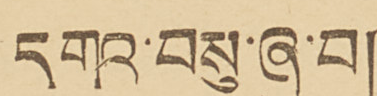དགའ་བསུ་ཞུ་བ།
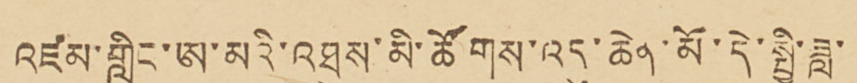འཛམ་གླིང་ཨ་མའི་འཐུས་མི་ཚོགས་འདུ་ཆེན་མོ་དེ་སྤྱི་ཟླ་ ༧
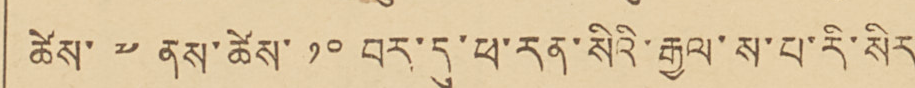ཚེས་ ༧ ནས་ཚེས་ ༡༠ བར་དུ་ཕ་རན་སིའི་རྒྱལ་ས་པ་རི་སིར་
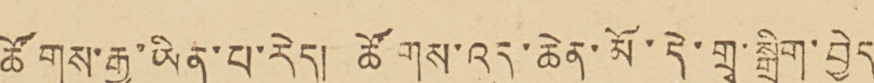ཚོགས་རྒྱུ་ཡིན་པ་རེད། ཚོགས་འདུ་ཆེན་མོ་དེ་གྲྭ་སྒྲིག་བྱེད་་
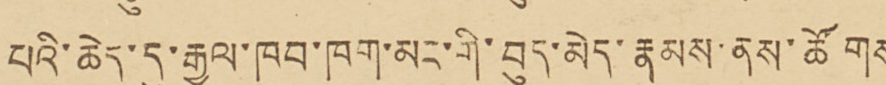པའི་ཆེད་དུ་རྒྱལ་ཁབ་ཁག་མང་གི་བུད་མེད་རྣམས་ནས་ཚོགས་
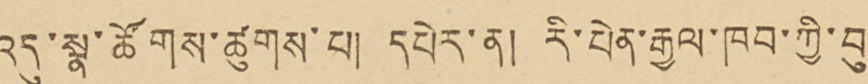འདུ་སྣ་ཚོགས་ཚུགས་པ། དཔེར་ན། རི་པེན་རྒྱལ་ཁབ་ཀྱི་བུད་
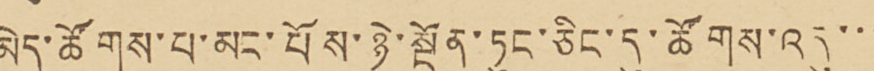མེད་ཚོགས་པ་མང་པོས་ཉེ་སྔོན་ཏུང་ཅིང་དུ་ཚོགས་འདུ་་་་
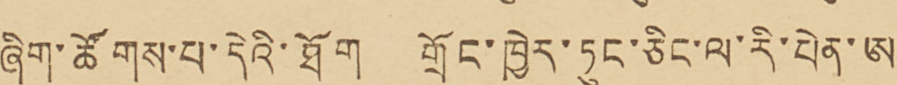ཞིག་ཚོགས་པ་དེའི་ཐོག གྲོང་ཁྱེར་ཏུང་ཅིང་ལ་རི་པེན་ཨ་
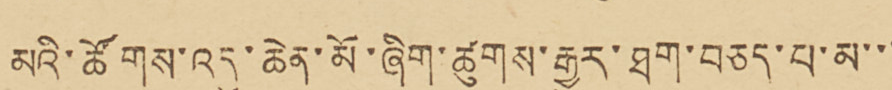མའི་ཚོགས་འདུ་ཆེན་མོ་ཞིག་ཚུགས་རྒྱུར་ཐག་བཅད་པ་མ་་་
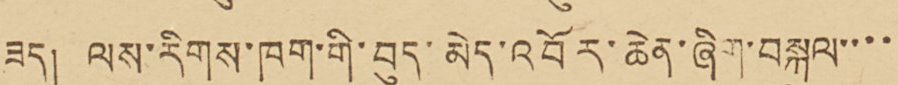ཟད། ལས་རིགས་ཁག་གི་བུད་མེད་འབོར་ཆེན་ཞིག་བསྐུལ་་་་་
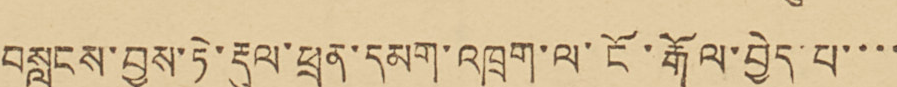བསླངས་བྱས་ཏེ་རྡུལ་ཕྲན་དམག་འཁྲུག་ལ་ངོ་རྒོལ་བྱེད་པ་་་་
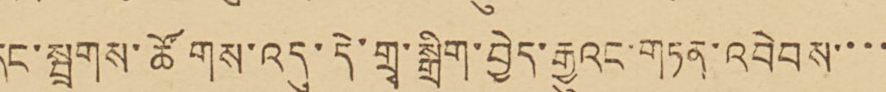དང་སྦྲགས་ཚོགས་འདུ་དེ་གྲྭ་སྒྲིག་བྱེད་རྒྱུའང་གཏན་འབེབས་་་་
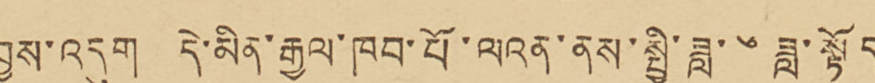བྱས་འདུག དེ་མིན་རྒྱལ་ཁབ་པོ་ལའན་ནས་སྤྱི་ཟླ་ ༦ ཟླ་སྟོད་
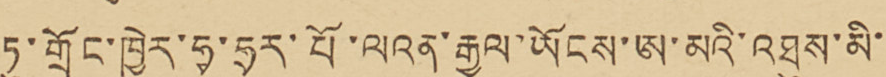ཏུ་གྲོང་ཁྱེར་ཧྭ་ཧྲར་པོ་ལའན་རྒྱལ་ཡོངས་ཨ་མའི་འཐུས་མི་་
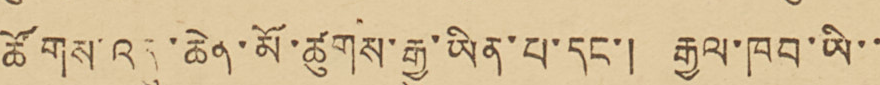ཚོགས་འདུ་ཆེན་མོ་ཚུགས་རྒྱུ་ཡིན་པ་དང་། རྒྱལ་ཁབ་ཡི་་་
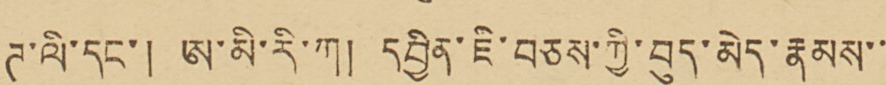ཊ་ལི་དང་། ཨ་མི་རི་ཀ། དབྱིན་ཇི་བཅས་ཀྱི་བུད་མེད་རྣམས་་་
